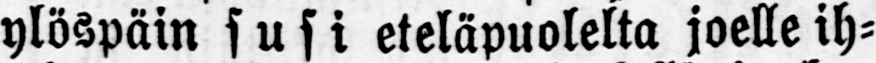ylöspäin susi eteläpuolelta joelle ih-
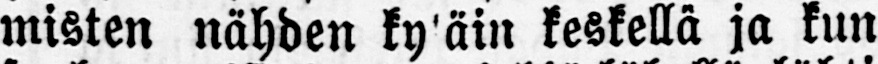misten nähden kyläin keskellä ja kun
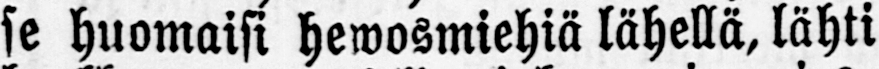se huomaisi hewosmiehiä lähellä, lähti
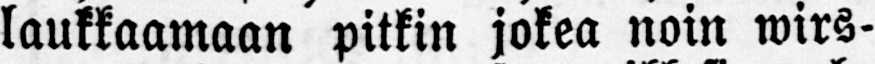laukkaamaan pitkin jokea noin wirs-
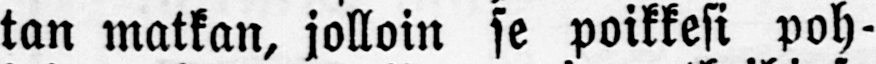tan matkan, jolloin se poikkesi poh-
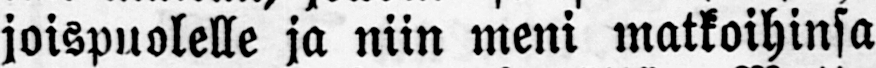joispuolelle ja niin meni matkoihinsa
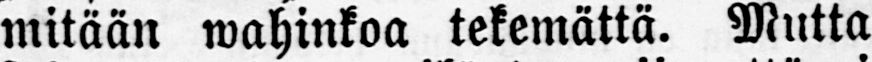mitään wahinkoa tekemättä. Mutta
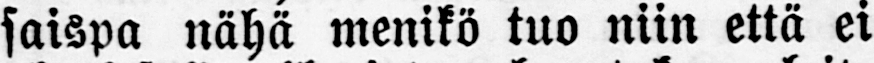saispa nähä menikö tuo niin että ei
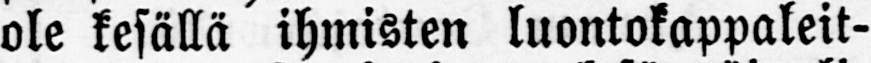ole kesällä ihmisten luontokappaleit-
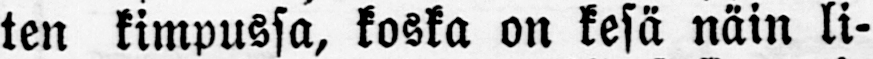ten kimpussa, koska on kesä näin li-
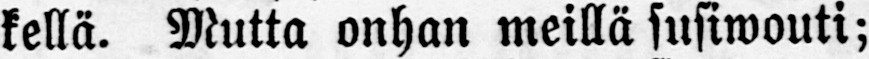kellä. Mutta onhan meillä susiwouti;
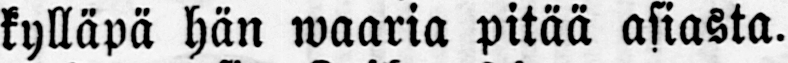kylläpä hän waaria pitää asiasta.
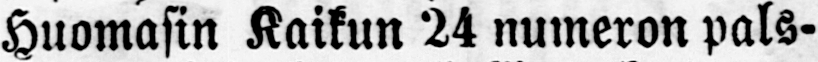Huomasin Kaikun 24 numeron pals-
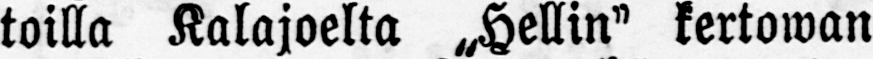toilla Kalajoelta „Hellin" kertoman
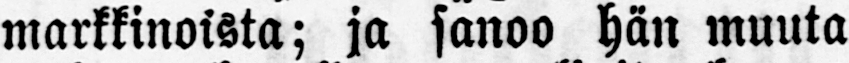markkinoista; ja sanoo hän muuta
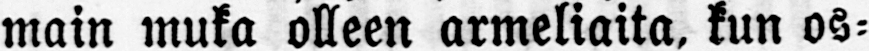main muka olleen armeliaita, kun os-
